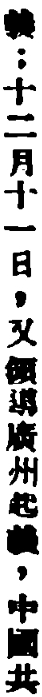義；十二月十一日，又領導廣州起義，中國共
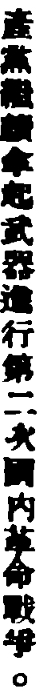產黨繼續拿起武器進行第二次國內革命戰爭。
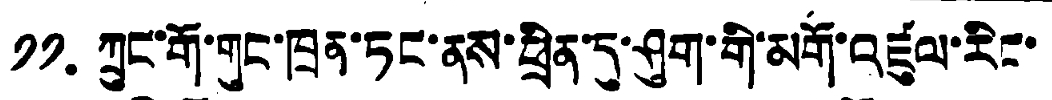༡༡. ཀྲུང་གོ་གུང་ཁྲན་ཏང་ནས་ཕྲིན་དུ་ཤུག་གི་མགོ་འཛུལ་རིང་
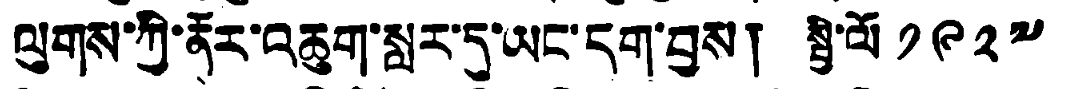ལུགས་ཀྱི་ནོར་འཆུག་སླར་དུ་ཡང་དག་བྱས། སྤྱི་ལོ ༡༩༢༧
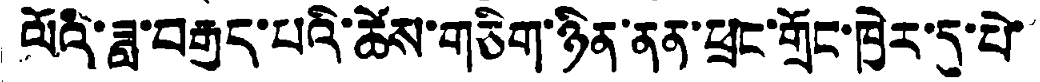ལོའི་ཟླ་བརྒྱད་པའི་ཚེས་གཅིག་ཉིན་ནན་ཕྲང་གྲོང་ཁྱེར་དུ་པེ་
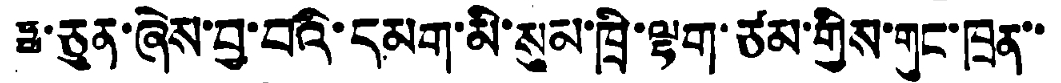ཧྥ་ཅུན་ཞེས་བྱ་བའི་དམག་མི་སུམ་ཁྲི་ལྷག་ཙམ་གྱིས་གུང་ཁྲན་་
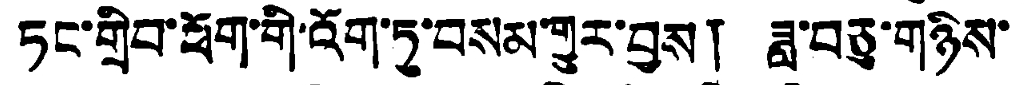ཏང་གྲིབ་ཕོག་གི་འོག་ཏུ་བསམ་གྱུར་བྱས། ཟླ་བཅུ་གཉིས་
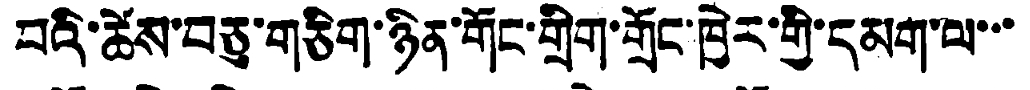བའི་ཚེས་བཅུ་གཅིག་ཉིན་གོང་གྲིག་གྲོང་ཁྱེར་གྱི་དམག་ལ་་་
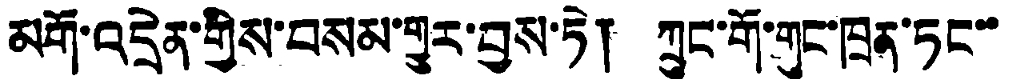མགོ་འདྲེན་གྱིས་བསམ་གྱུར་བྱས་ཏེ། ཀྲུང་གོ་གུང་ཁྲན་ཏང་་
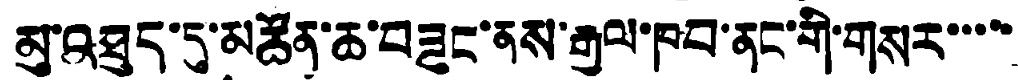མུ་འཐུད་དུ་མཚོན་ཆ་བཟུང་ནས་རྒྱལ་ཁབ་ནང་གི་གསར་་་་་
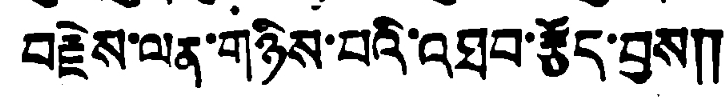བརྗེས་ལན་གཉིས་པའི་འཐབ་རྩོད་བྱས༎
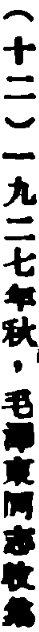（十二）一九二七年秋，毛澤東同志收集
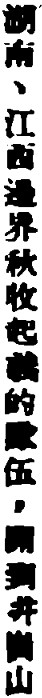湖南、江西邊界秋收起義的隊伍，開到井崗山
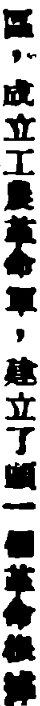區，成立工農革命軍，建立了頭一個革命根據
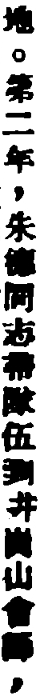地。第二年，朱德同志帶隊伍到井崗山會師，
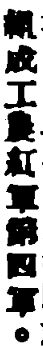組成工農紅軍第四軍。
